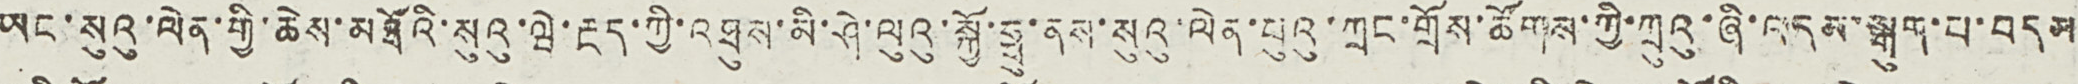ཡང་སུའུ་ལེན་གྱི་ཆེས་མཐོའི་སུའུ་ཝེ་རྔད་ཀྱི་འཐུས་མི་ཤེ་ལུའུ་སྐྱོ་ཧྥུ་ནས་སུའུ་ལེན་པུའུ་ཀྲང་གྲོས་ཚོགས་ཀྱི་ཀྲུའུ་ཞི་འདམ་སྒུག་པ་བདམ
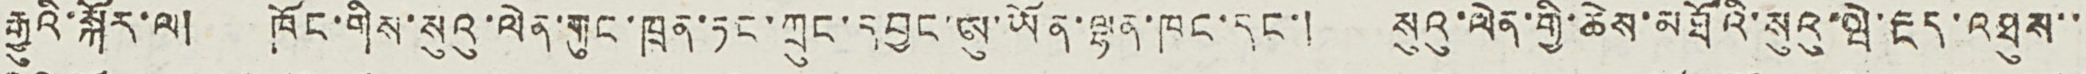རྒྱུའི་སྐོར་ལ། ཁོང་གིས་སུའུ་ལེན་གུང་ཁྲན་ཏང་ཀྲུང་དབྱང་ཨུ་ཡོན་ལྷན་ཁང་དང་། སུའུ་ལེན་གྱི་ཆེས་མཐོའི་སུའུ་ཝེ་རྔད་འཐུས་་
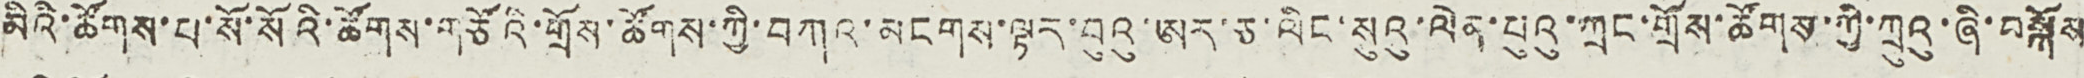མིའི་ཚོགས་པ་སོ་སོའི་ཚོགས་གཙོའི་གྲོས་ཚོགས་ཀྱི་བཀའ་མངགས་ལྟར་བུའུ་ཨར་ཅ་ལིང་སུའུ་ལེན་པུའུ་ཀྲང་གྲོས་ཚོགས་ཀྱི་ཀྲུའུ་ཞི་བསྐོས
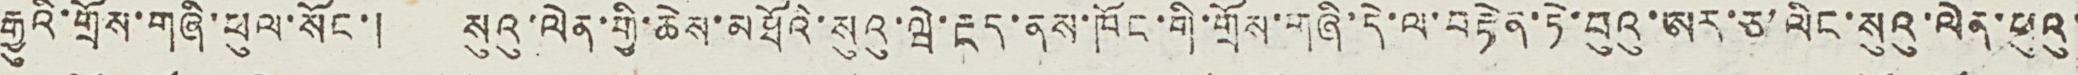རྒྱུའི་གྲོས་གཞི་ཕུལ་སོང་། སུའུ་ལེན་གྱི་ཆེས་མཐོའི་སུའུ་ཝེ་རྔད་ནས་ཁོང་གི་གྲོས་གཞི་དེ་ལ་བརྟེན་ཏེ་བུའུ་ཨར་ཅ་ལིང་སུའུ་ལེན་པུའུ་
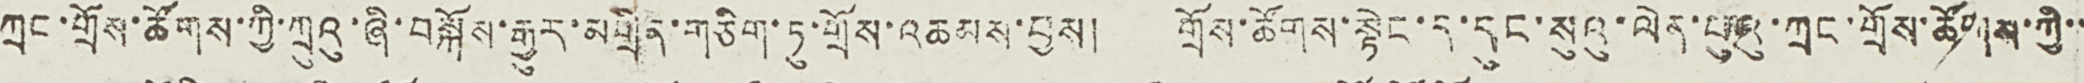ཀྲང་གྲོས་ཚོགས་ཀྱི་ཀྲུའུ་ཞི་བསྐོས་རྒྱུར་མགྲིན་གཅིག་ཏུ་གྲོས་འཆམས་བྱས། གྲོས་ཚོགས་སྟེང་ད་དུང་སུའུ་ལེན་པུའུ་ཀྲང་གྲོས་ཚོགས་ཀྱི་་
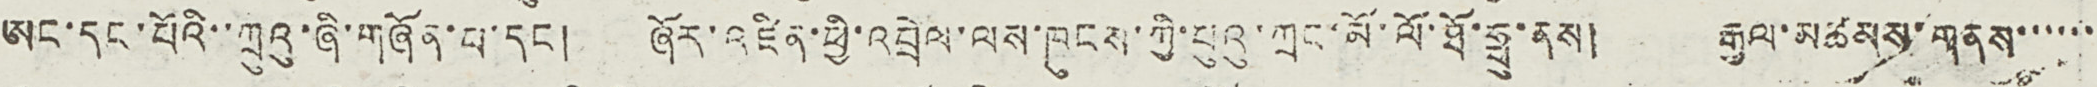ཨང་དང་པོའི་་ཀྲུའུ་ཞི་གཞོན་པ་དང། ཞོར་འཛིན་ཕྱི་འབྲེལ་ལས་ཁུངས་ཀྱི་པུའུ་ཀྲང་མོ་ལོ་ཐོ་ཧྥུ་ནས། རྒྱལ་མཚམས་གནས་་་་་་
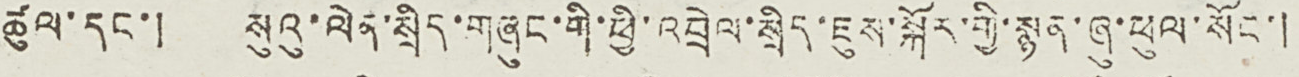ཚུལ་དང་། སུའུ་ལེན་སྲིད་གཞུང་གི་ཕྱི་འབྲེལ་སྲིད་ཇུས་སྐོར་གྱི་སྙན་ཞུ་ཕུལ་སོང་།
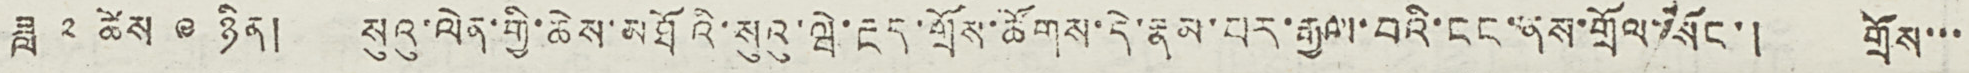ཟླ ༢ ཚེས ༩ ཉིན། སུའུ་ལེན་གྱི་ཆེས་མཐོའི་སུའུ་ཝེ་རྔད་གྲོས་ཚོགས་དེ་རྣམ་པར་རྒྱལ་བའི་ངང་ནས་གྲོལ་སོང་། གྲོས་་་
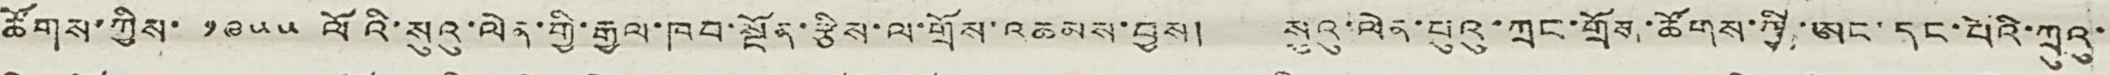ཚོགས་ཀྱིས་ ༡༩༥༥ ལོའི་སུའུ་ལེན་གྱི་རྒྱལ་ཁབ་སྔོན་རྩིས་ལ་གྲོས་འཆམས་བྱས། སུའུ་ལེན་པུའུ་ཀྲང་གྲོས་ཚོགས་ཀྱི་ཨང་དང་པོའི་ཀྲུའུ་
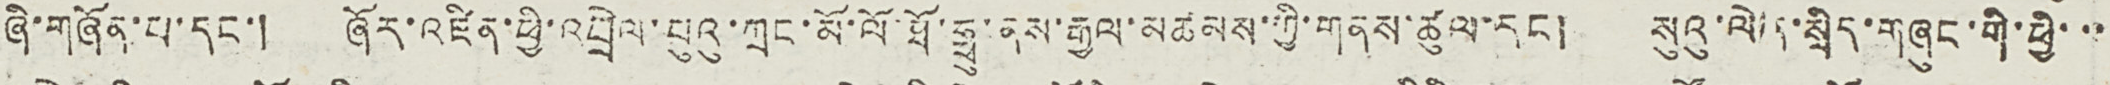ཞི་གཞོན་པ་དང་། ཞོར་འཛིན་ཕྱི་འབྲེལ་པུའུ་ཀྲང་མོ་ལོ་ཐོ་ཧྥུ་ནས་རྒྱལ་མཚམས་ཀྱི་གནས་ཚུལ་དང། སུའུ་ལེན་སྲིད་གཞུང་གི་ཕྱི་་་
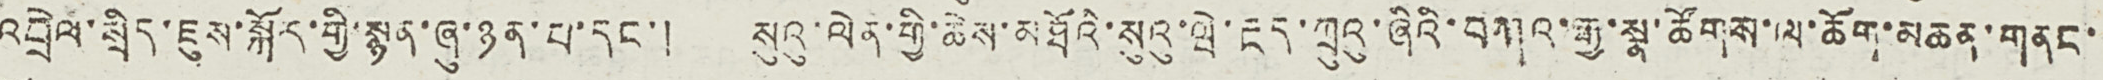འབྲེལ་སྲིད་ཇུས་སྐོར་གྱི་སྙན་ཞུ་ཉན་པ་དང་། སུའུ་ལེན་གྱི་ཆེས་མཐོའི་སུའུ་ཝེ་རྔད་ཀྲུའུ་ཞིའི་བཀའ་རྒྱ་སྣ་ཚོགས་ལ་ཆོག་མཆན་གནང་
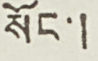སོང་།
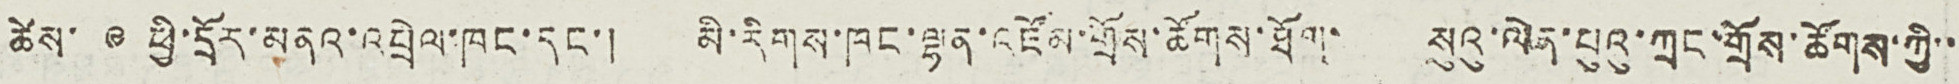ཚེས་ ༩ ཕྱི་དྲོར་མནའ་འབྲེལ་ཁང་དང་། མི་རིགས་ཁང་ལྷན་འཛོམ་གྲོས་ཚོགས་ཐོག་ སུའུ་ལེན་པུའུ་ཀྲང་གྲོས་ཚོགས་ཀྱི་་
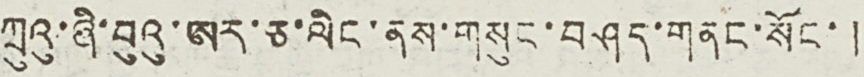ཀྲུའུ་ཞི་བུའུ་ཨར་ཅ་ལིང་ནས་གསུང་བཤད་གནང་སོང་།
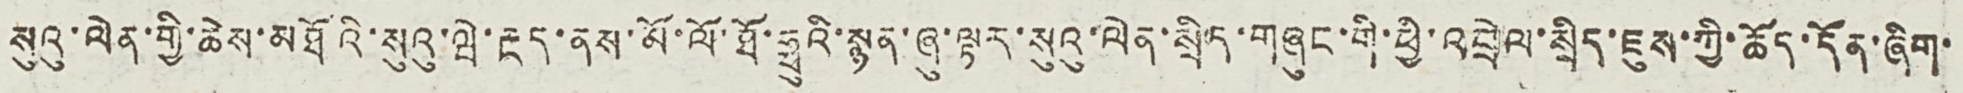སུའུ་ལེན་གྱི་ཆེས་མཐོའི་སུའུ་ཝེ་རྔད་ནས་མོ་ལོ་ཐོ་ཧྥུའི་སྙན་ཞུ་ལྟར་སུའུ་ལེན་སྲིད་གཞུང་གི་ཕྱི་འབྲེལ་སྲིད་ཇུས་ཀྱི་ཆོད་དོན་ཞིག་
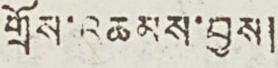གྲོས་འཆམས་བྱས།
